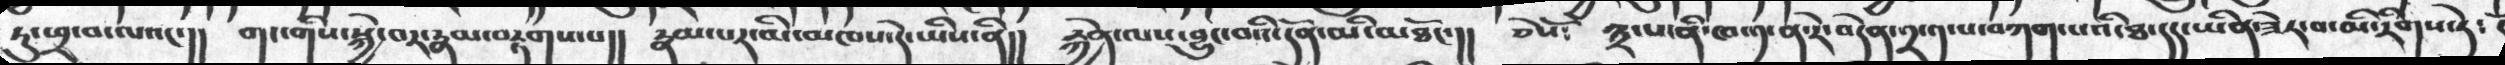ཏུ་ཕྲ་བ་ལའང་།། གང་གིས་སྐྱེ་བར་རྣམ་བརྟགས་པ།། རྣམ་པར་མི་མཁས་དེ་ཡིས་ནི།། རྐྱེན་ལས་བྱུང་བའི་དོན་མི་མཐོང་།། ཅེསོ༴ ༣་པ་ནི་ཁ་༡་ན་རེ་བདེན་༢་༡་པ་བཀག་པའི་ཐ་དད་ཡིན་ཟེར་བ་མི་རིགས་ཏེ༴
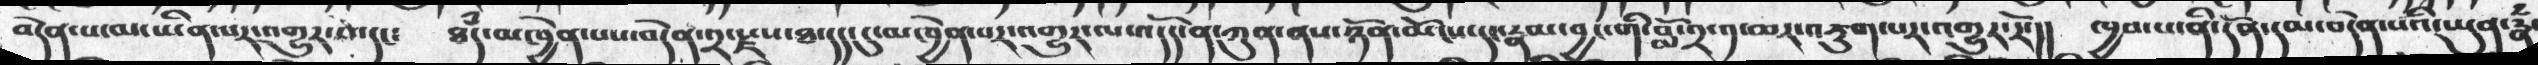བདེན་པ་མ་ཡིན་པར་འགྱུར་བ་དང༴ ཐཾད་མཁྱེན་པས་བདེན་༢་སྫས་ཐ་དད་དུ་མཁྱེན་པར་འགྱུར་ལ་འདོད་ན་ཀུན་ནས་ཉོན་མོངས་དང་རྣམ་བྱང་གི་བློ་༢་༡་ཆར་འཇུག་པར་འགྱུར་རོ་།། ཁྱབ་པ་ནི་དོན་དམ་བདེན་པའི་ཡུན་རྣཾ་
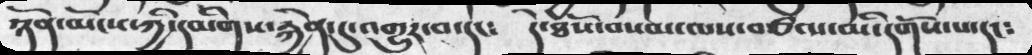ཉོན་མོངས་ཀྱི་དམིགས་རྐྱེན་དུ་འགྱུར་བ་དང༴     དེ་ཐོས་བསམ་ལས་བཙལ་མི་དགོས་པ་དང༴
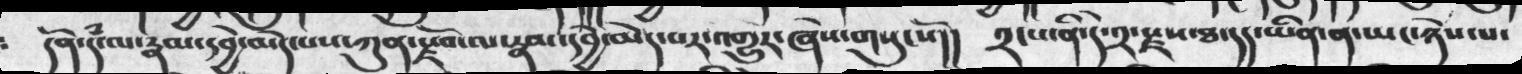དོན་དཾ་ལ་རྣམ་དབྱེ་མེད་པས་ཀུན་སྫོབ་ལ་རྣམ་དབྱེ་མེད་པར་འགྱུར་ཞེས་གསུངསོ།།   ༢་པ་ནི་དེ་༢་སྫས་ཐ་དད་ཡིན་ན་ཡང་ཉེས་པ་
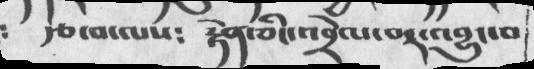རྩ་བ་ལས༴ རྟེན་ཅིང་འབྲེལ་བར་འབྱུང་བ
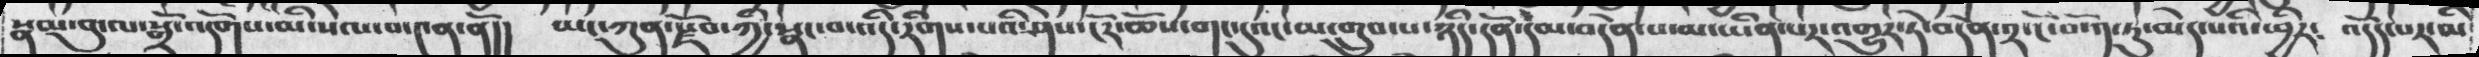སྣམ་བུ་ལ་སྒྲོ་འདོགས་མི་སལ་བ་༤ན་ནོ།། ཡང་ཀུན་སྫོབ་ཀྱི་སྣང་བ་འདི་རིགས་པའི་ཤེས་ངོར་ཆོས་གང་དུའང་མ་གྲུབ་པ་ཉིད་དོན་དམ་བདེན་པ་མ་ཡིན་པར་འགྱུར་ཏེ་བདེན་༢་ངོ་བོ་༡་ཏུ་མེད་པའི་ཕྱིར༴ འདོད་པར་མི
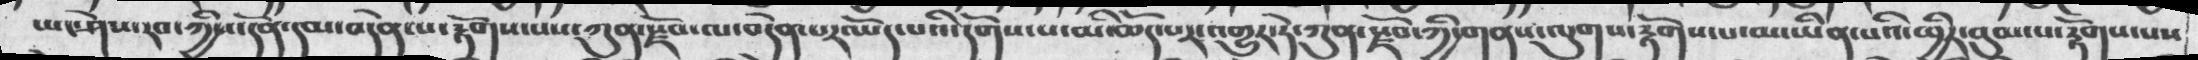ཡང་ཤེས་རབ་ཀྱིས་དོན་དམ་བདེན་པ་རྟོགས་པས་ཀུན་སཛོབ་ལ་བདེན་པར་ཡོད་པའི་དགོས་པ་མི་ཆོད་པར་འགྱུར་ཏེ་ཀུན་སཛོབ་ཀྱི་གནས་ལུགས་རྟོགས་པ་མ་ཡིན་པའི་ཕྱིར་བུམ་པ་རྟོགས་པས
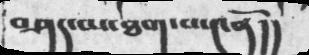བཤད་མ་ཐག་པ་༤ནོ།།
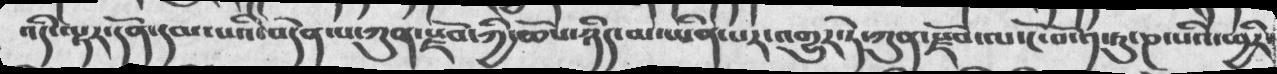འདི་ལྟར་དོན་དམ་པའི་བདེན་པ་ཀུན་སྫོབ་ཀྱི་ཆོས་ཉིད་མ་ཡིན་པར་འགྱུར་ཏེ་ཀུན་སྫོབ་ལ་ངོ་བོ་༡་ཏུ་ཎ་པའི་ཕྱིར་
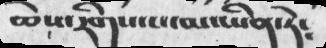ཆེས་རིགས་པ་མ་ཡིན་ཏེ༴
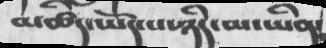མཚིན་ཡོད་པ་ཉིད་མ་ཡིན་
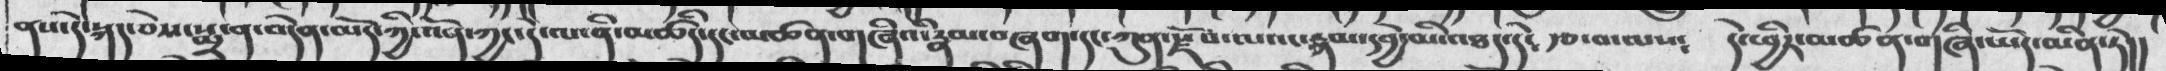ནས་དེ་སྐད་ཅེས་སྨྲ་ན་བདེན་མེད་ཀྱི་འོན་ཀྱང་དེ་ལ་ནི་མཚིད་དང་མཚན་གཞིའི་རྣམ་བཞག་དང་ཀུན་སྫོབ་ལའང་རྣམ་དབྱེ་མི་འཐད་དེ༴ རྩ་བ་ལས༴ དེ་ཕྱིར་མཚན་གཞི་ཡོད་མིན་ཏེ།།
